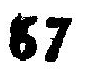67
